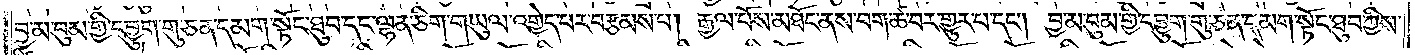བྱ་མ་བུམ་གྱི་དབྱུག་གུ་ཅན་དམག་སྟོང་ཐུབ་དང་ལྷན་ཅིག་གཡུལ་འགྱེད་པར་བརྩམས་པ། རྒྱལ་པོས་མཐོང་ནས་བག་ཚ་བར་གྱུར་པ་དང༌། བྱ་མ་བུམ་གྱི་དབྱུག་གུ་ཅན་དམག་སྟོང་ཐུབ་ཀྱིས་
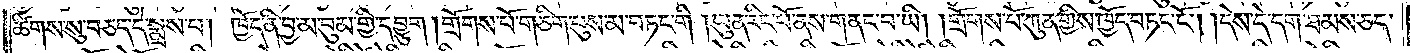ཚིགས་སུ་བཅད་དེ་སྨྲས་པ། ཁྱོད་ནི་བྱ་མ་བུམ་གྱི་དབྱུག །གྲོགས་པོ་གཅིག་པུས་མ་བཏང་གི །ཡུན་རིང་པོ་ནས་གནང་བ་ཡི། །གྲོགས་པོ་ཀུན་གྱིས་ཁྱོད་བཏང་ངོ༌། །དེས་དེ་དག་ཐམས་ཅད་
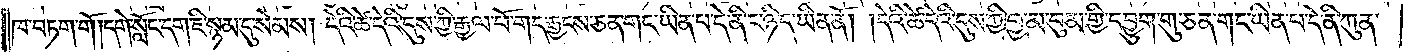ཁ་བཏག་གོ།དགེ་སློང་དག་ཇི་སྙམ་དུ་སེམས། དེའི་ཚེ་དེའི་དུས་ཀྱི་རྒྱལ་པོ་གད་རྒྱངས་ཅན་གང་ཡིན་པ་དེ་ནི་ང་ཉིད་ཡིན་ནོ། །དེའི་ཚེ་དེའི་དུས་ཀྱི་བྱ་མ་བུམ་གྱི་དབྱུག་གུ་ཅན་གང་ཡིན་པ་དེ་ནི་ཀུན་
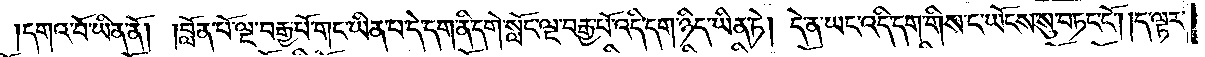དགའ་བོ་ཡིན་ནོ། །བློན་པོ་ལྔ་བརྒྱ་པོ་གང་ཡིན་པ་དེ་དག་ནི་དགེ་སློང་ལྔ་བརྒྱ་བོ་འདི་དག་ཉིད་ཡིན་ཏེ། དེ་ན་ཡང་འདི་དག་གིས་ང་ཡོངས་སུ་བཏང་ངོ༌། །ད་ལྟར་
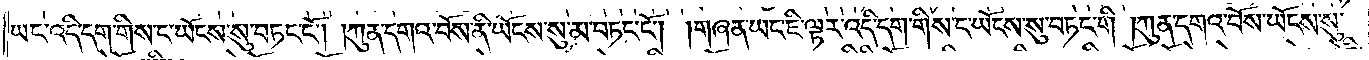ཡང་འདི་དག་གིས་ང་ཡོངས་སུ་བཏང་ངོ༌། །ཀུན་དགའ་བོས་ནི་ཡོངས་སུ་མ་བཏང་ངོ༌། །གཞན་ཡང་ཇི་ལྟར་འདི་དག་གིས་ང་ཡོངས་སུ་བཏང་གི །ཀུན་དགའ་བོས་ཡོངས་སུ་
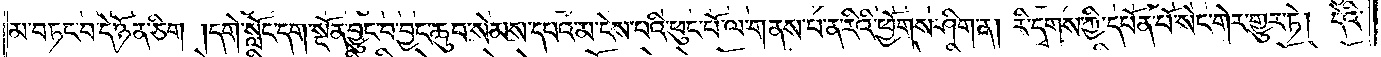མ་བཏང་བ་དེ་ཉོན་ཅིག །དགེ་སློང་དག་སྔོན་བྱུང་བ་བྱང་ཆུབ་སེམས་དཔའ་མ་ངེས་པའི་ཕུང་པོ་ལ་གནས་པ་ན་རིའི་ཕྱོགས་ཤིག་ན། རི་དྭགས་ཀྱི་དཔོན་པོ་སེང་གེར་གྱུར་ཏེ། དེའི་
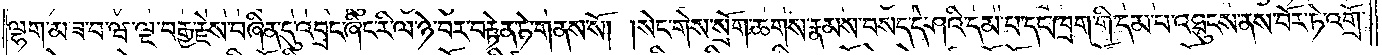ལྷག་མ་ཟ་བ་ཝ་ལྔ་བརྒྱ་རྗེས་བཞིན་དུ་འབྲང་ཞིང་རི་ལ་ཉེ་བར་བརྟེན་ཏེ་གནས་སོ། །སེང་གེས་སྲོག་ཆགས་རྣམས་བསད་དེ་ཤའི་དམ་པ་དང་ཁྲག་གི་དམ་པ་འཐུངས་ནས་བོར་ཏེ་འགྲོ་
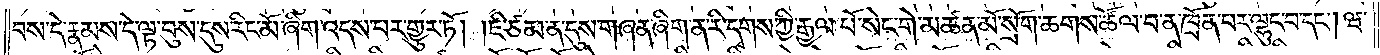བས་དེ་རྣམས་དེ་ལྟ་བུས་དུས་རིང་མོ་ཞིག་འདས་པར་གྱུར་ཏོ། །ཇི་ཙམ་ན་དུས་གཞན་ཞིག་ན་རི་དྭགས་ཀྱི་རྒྱལ་པོ་སེང་གེ་མཚན་མོ་སྲོག་ཆགས་ཚོལ་བ་ན་ཁྲོན་པར་ལྷུང་བ་དང༌། ཝ་
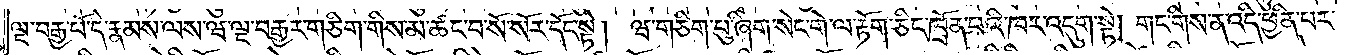ལྔ་བརྒྱ་པོ་དེ་རྣམས་ལས་ཝ་ལྔ་བརྒྱར་གཅིག་གིས་མ་ཚང་བ་སོ་སོར་དོང་སྟེ། ཝ་གཅིག་པུ་ཞིག་སེང་གེ་ལ་རྟོག་ཅིང་ཁྲོན་པའི་ཁར་འདུག་སྟེ། གང་གིས་ན་འདི་ཕྱིན་པར་
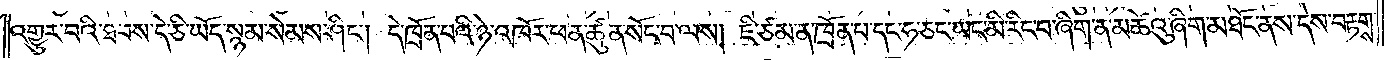འགྱུར་བའི་ཐབས་དེ་ཅི་ཡོད་སྙམ་སེམས་ཤིང༌། དེ་ཁྲོན་པའི་ཉེ་འཁོར་ཕན་ཚུན་སོང་བ་ལས། ཇི་ཙམ་ན་ཁྲོན་པ་དང་ཧ་ཅང་ཡང་མི་རིང་བ་ཞིག་ན་མཚེའུ་ཞིག་མཐོང་ནས་དེས་བརྟགས་
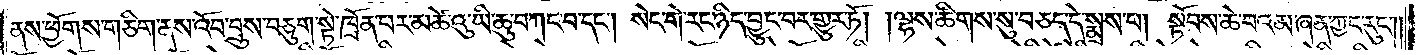ནས་ཕྱོགས་གཅིག་ནས་འོབ་བྲུས་བཅུག་སྟེ་ཁྲོན་པར་མཚེ་འུ་ཡི་ཆུ་བཀང་བ་དང༌། སེང་གེ་རང་ཉིད་བྱུང་བར་གྱུར་ཏོ། །ལྷས་ཚིགས་སུ་བཅད་དེ་སྨྲས་པ། སྟོབས་ཆེ་བའམ་ཞན་ཀྱང་རུང༌༎
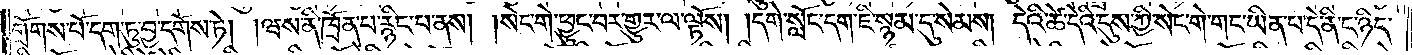གྲོགས་པོ་དག་ཏུ་བྱ་དགོས་ཏེ། །ཝས་ནི་ཁྲོན་པ་རྙིང་པ་ནས། །སེང་གེ་ཕྱུང་བར་གྱུར་ལ་ལྟོས། །དགེ་སློང་དག་ཇི་སྙམ་དུ་སེམས། །དེའི་ཚེ་དེའི་དུས་ཀྱི་སེང་གེ་གང་ཡིན་པ་དེ་ནི་ང་ཉིད་
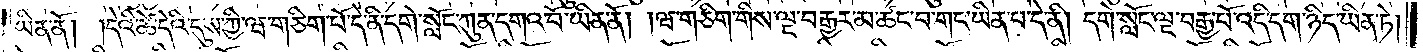ཡིན་ནོ། །དེའི་ཚེ་དེའི་དུས་ཀྱི་ཝ་གཅིག་པོ་དེ་ནི་དགེ་སློང་ཀུན་དགའ་བོ་ཡིན་ནོ། །ཝ་གཅིག་གིས་ལྔ་བརྒྱར་མ་ཚང་བ་གང་ཡིན་པ་དེ་ནི། དགེ་སློང་ལྔ་བརྒྱ་པོ་འདི་དག་ཉིད་ཡིན་ཏེ།
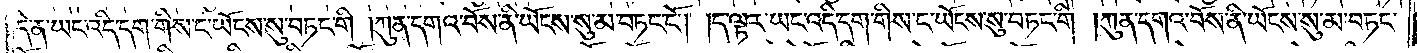དེ་ན་ཡང་འདི་དག་གིས་ང་ཡོངས་སུ་བཏང་གི །ཀུན་དགའ་བོས་ནི་ཡོངས་སུ་མ་བཏང་ངོ༌། །ད་ལྟར་ཡང་འདི་དག་གིས་ང་ཡོངས་སུ་བཏང་གི །ཀུན་དགའ་བོས་ནི་ཡོངས་སུ་མ་བཏང་
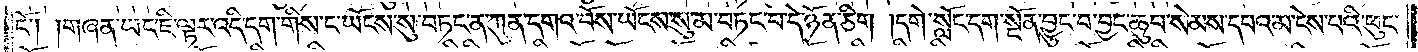ངོ༌། །གཞན་ཡང་ཇི་ལྟར་འདི་དག་གིས་ང་ཡོངས་སུ་བཏང་ན་ཀུན་དགའ་བོས་ཡོངས་སུ་མ་བཏང་བ་དེ་ཉོན་ཅིག །དགེ་སློང་དག་སྔོན་བྱུང་བ་བྱང་ཆུབ་སེམས་དཔའ་མ་ངེས་པའི་ཕུང་
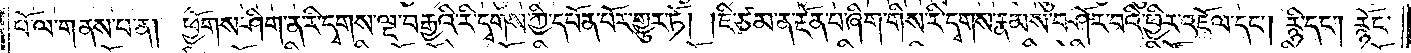པོ་ལ་གནས་པ་ན། ཕྱོགས་ཤིག་ན་རི་དྭགས་ལྔ་བརྒྱའི་རི་དྭགས་ཀྱི་དཔོན་པོར་གྱུར་ཏོ། །ཇི་ཙམ་ན་རྔོན་པ་ཞིག་གིས་རི་དྭགས་རྣམས་བཤོར་བའི་ཕྱིར་འཇོལ་དང༌། རྙི་དང༌། རྙོང་
